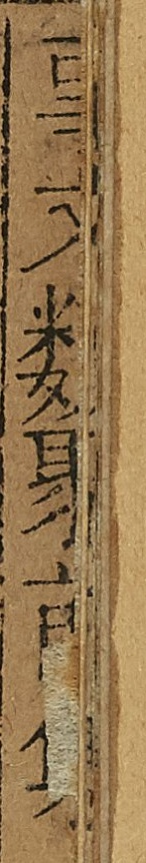事文類聚
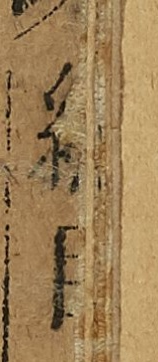總目
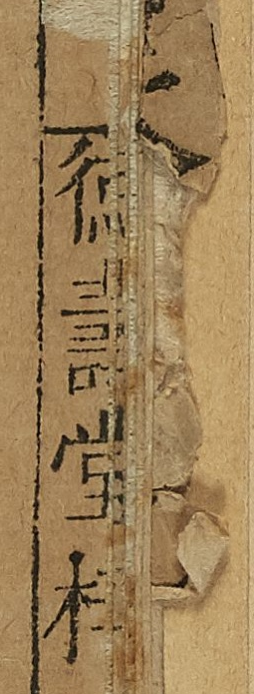德壽堂梓
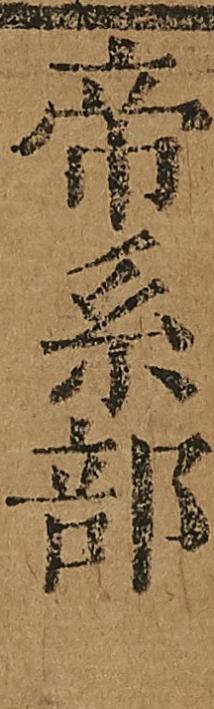帝系部
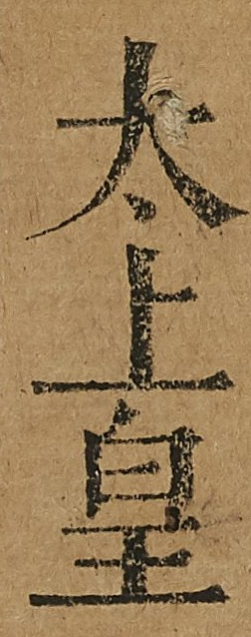太上皇
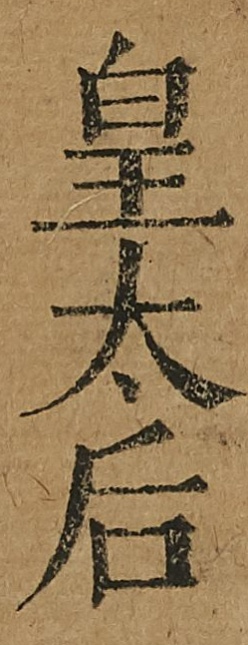皇太后
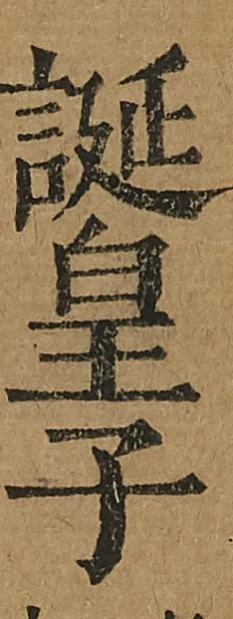誕皇子
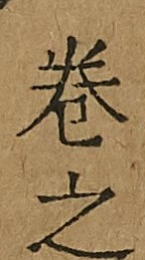卷之
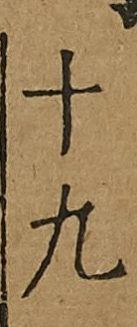十九
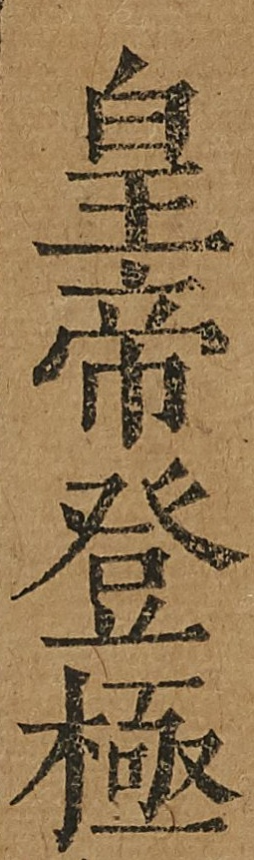皇帝登極
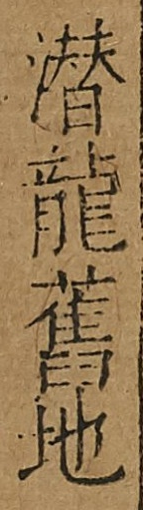潛龍舊地
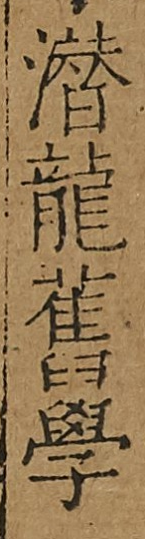潛龍舊學
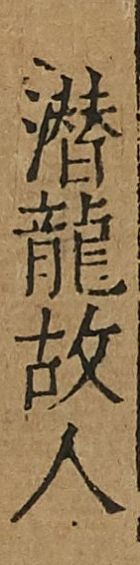潛龍故人
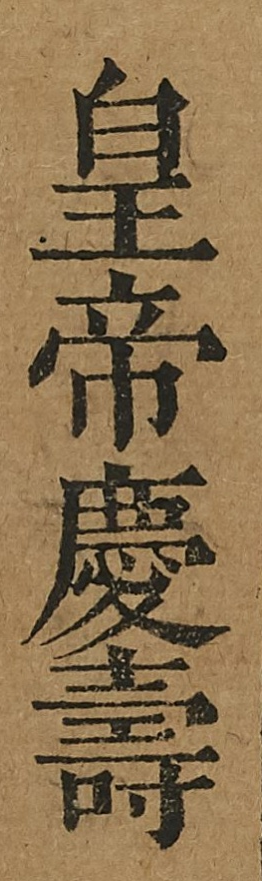皇帝慶壽
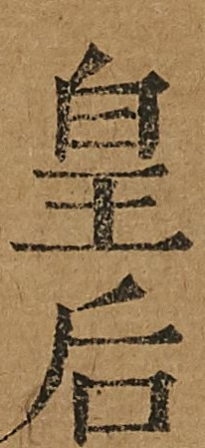皇后
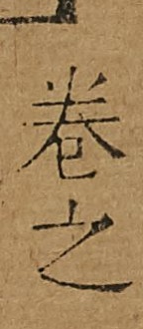卷之
